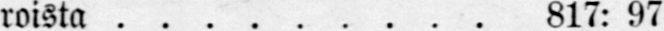roista 817: 97
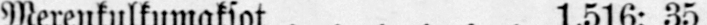Merenkulkumaksot 1,516: 35
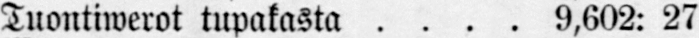Tuontiwerot tupakasta 9,602: 27
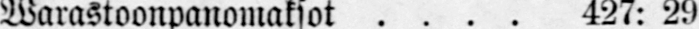Warastoonpanomaksot 427: 29
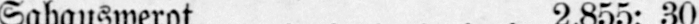Sahauswerot 2,855: 30
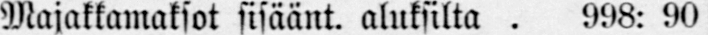Majakkamaksot sisäänt. aluksilta 998:90
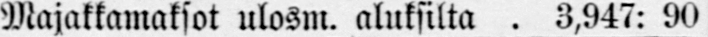Majakkamaksot ulosm. aluksilta 3,947:90
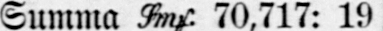Summa ?? 70,717: 19
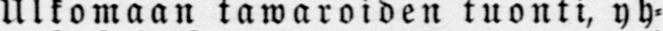Ulkomaan tawaroiden tuonti, yh-
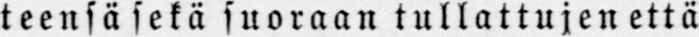teensäsetä suoraan tullattujen että
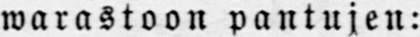warastoon pantujen:
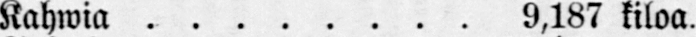Kahwia 9,187 kiloa.
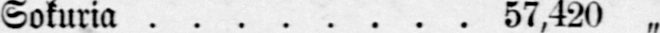Sokuria 57,420 „
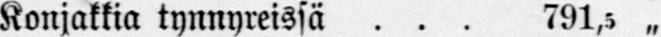Konjakkia tynnyreissä 791,5 „
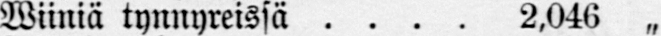Wiiniä tynnyreissä 2,046 „
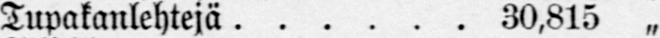Tupakanlehtejä 30,815 „
